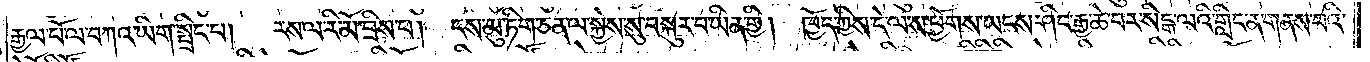རྒྱལ་པོ་ལ་བཀའ་ཡིག་སྤྲིང་པ། རས་ལ་རི་མོ་བྲིས་པ། ངས་མུ་ཏིག་ཅན་ལ་སྐྱེས་སུ་བསྐུར་བ་ཡིན་གྱི། ཁྱོད་ཀྱིས་དེ་ལ་ས་ཕྱོགས་ཡངས་ཤིང་རྒྱ་ཆེ་བར་སིངྒ་ལའི་གླིང་ན་གནས་བའི་
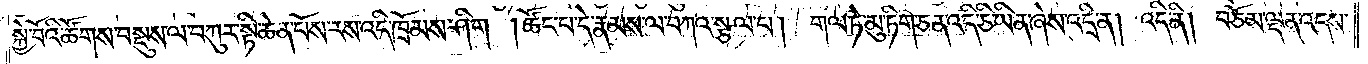སྐྱེ་བོའི་ཚོགས་བསྡུས་ལ་བཀུར་སྟི་ཆེན་པོས་རས་འདི་ཁྲོམས་ཤིག །ཚོང་པ་དེ་རྣམས་ལ་བཀའ་སྩལ་པ། གལ་ཏེ་མུ་ཏིག་ཅན་འདི་ཅི་ཡིན་ཞེས་འདྲི་ན། འདི་ནི། བཅོམ་ལྡན་འདས་
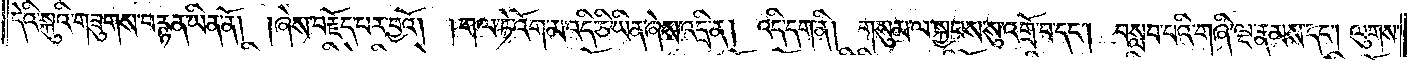དེའི་སྐུའི་གཟུགས་བརྙན་ཡིན་ནོ། །ཞེས་བརྗོད་པར་བྱའོ། །གལ་ཏེ་འོག་མ་འདི་ཅི་ཡིན་ཞེས་འདྲི་ན། འདི་དག་ནི། གསུམ་ལ་སྐྱབས་སུ་འགྲོ་བ་དང༌། བསླབ་པའི་གཞི་ལྔ་རྣམས་དང༌། ལུགས་
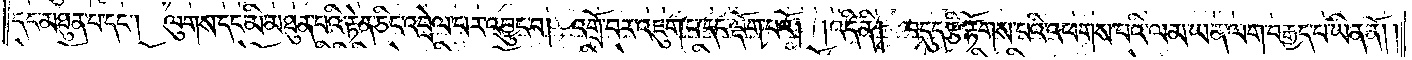དང་མཐུན་པ་དང༌། ལུགས་དང་མི་མཐུན་པའི་རྟེན་ཅིང་འབྲེལ་པར་འབྱུང་བ། འགྲོ་བར་འཇུག་པ་དང་ལྡོག་པའོ། །འདི་ནི། བདུད་རྩི་རྟོགས་པའི་འཕགས་པའི་ལམ་ཡན་ལག་བརྒྱད་པ་ཡིན་ནོ། །
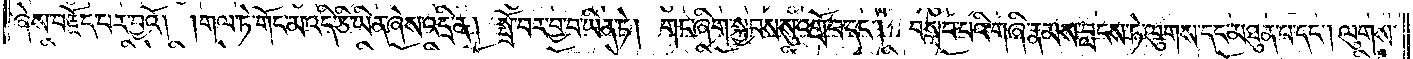ཞེས་བརྗོད་པར་བྱའོ། །གལ་ཏེ་གོང་མ་འདི་ཅི་ཡིན་ཞེས་འདྲི་ན། སྤྲོ་བར་བྱ་བ་ཡིན་ཏེ། གང་ཞིག་སྐྱབས་སུ་འགྲོ་བ་དང༌། བསླབ་པའི་གཞི་རྣམས་བླངས་ཏེ་ལུགས་དང་མཐུན་པ་དང༌། ལུགས་
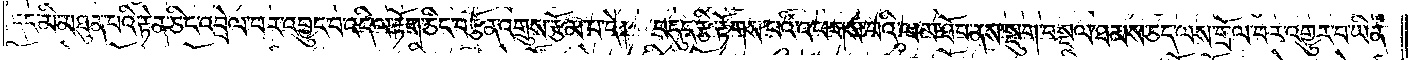དང་མི་མཐུན་པའི་རྟེན་ཅིང་འབྲེལ་པར་འབྱུང་བ་འདི་ལ་རྟོག་ཅིང་བརྩོན་འགྲུས་རྩོམ་པ་དེ། བདུད་རྩི་རྟོགས་པའི་འཕགས་པའི་ལམ་ཐོབ་ནས་སྡུག་བསྔལ་ཐམས་ཅད་ལས་གྲོལ་བར་འགྱུར་བ་ཡིན་
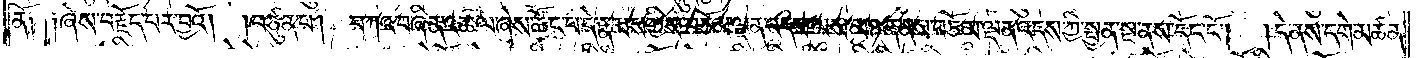ནོ༑ ༑ཞེས་བརྗོད་པར་བྱའོ། །བཙུན་པ། བཀའ་བཞིན་འཚལ་ཞེས་ཚོང་པ་དེ་རྣམས་ཀྱིས་བཅོམ་ལྡན་འདས་ལས་མཉན་ནས་བཅོམ་ལྡན་འདས་ཀྱི་སྤྱན་སྔ་ནས་དོང་ངོ༌། །དེ་ནས་དགེ་མཚན་
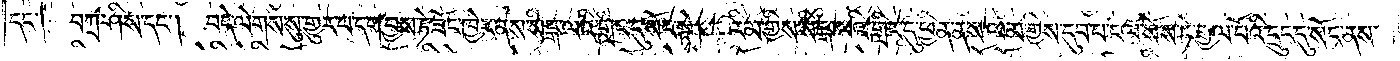དང༌། བཀྲ་ཤིས་དང༌། བདེ་ལེགས་སུ་གྱུར་བ་དག་བྱས་ཏེ་ཟོང་ཁྱེར་ནས་སིངྒ་ལའི་གླིང་དུ་སོང་སྟེ། རིམ་གྱིས་སིངྒ་ལའི་གླིང་དུ་ཕྱིན་ནས་ལམ་གྱིས་དུབ་པ་ངལ་སོས་ཏེ་རྒྱལ་པོའི་དྲུང་དུ་སོང་ནས་
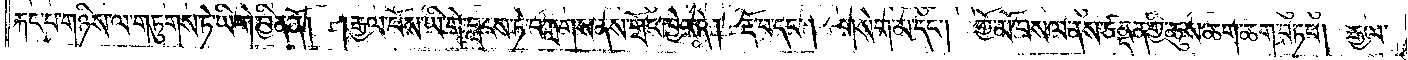རྐང་པ་གཉིས་ལ་གཏུགས་ཏེ་ཡི་གེ་བྱིན་ནོ། །རྒྱལ་པོས་ཡི་གེ་བླངས་ཏེ་བཀླགས་ནས་གྲོང་ཁྱེར་དེ། རྡོ་བ་དང༌། གསེག་མ་དང༌། གྱོ་མོ་བསལ་ནས་ཙནྡན་གྱི་ཆུས་ཆག་ཆག་བཏབ། རྒྱལ་
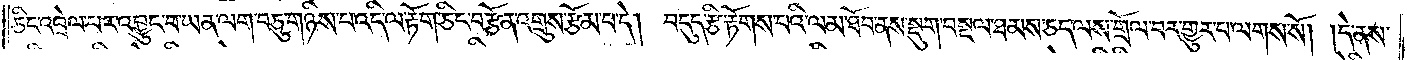ཅིང་འབྲེལ་པར་འབྱུང་བ་ཡན་ལག་བཅུ་གཉིས་པ་འདི་ལ་རྟོག་ཅིང་བརྩོན་འགྲུས་རྩོམ་པ་དེ། བདུད་རྩི་རྟོགས་པའི་ལམ་ཐོབ་ནས་སྡུག་བསྔལ་ཐམས་ཅད་ལས་གྲོལ་བར་གྱུར་པ་ལགས་སོ། །དེ་ནས་
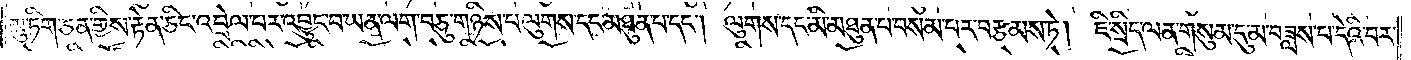མུ་ཏིག་ཅན་གྱིས་རྟེན་ཅིང་འབྲེལ་པར་འབྱུང་བ་ཡན་ལག་བཅུ་གཉིས་པ་ལུགས་དང་མཐུན་པ་དང༌། ལུགས་དང་མི་མཐུན་པ་བསམ་པར་བརྩམས་ཏེ། ཇི་སྲིད་ལན་གསུམ་དུ་མ་བཟླས་པ་དེའི་བར་
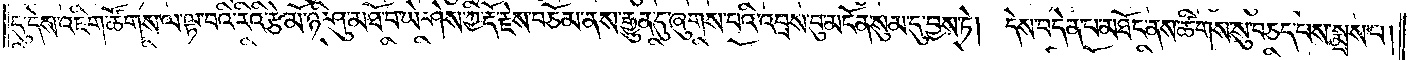དུ་དེས་འཇིག་ཚོགས་ལ་ལྟ་བའི་རིའི་རྩེ་མོ་ཉི་ཤུ་མཐོ་བ་ཡེ་ཤེས་ཀྱི་རྡོ་རྗེས་བཅོམ་ནས་རྒྱུན་དུ་ཞུགས་པའི་འབྲས་བུ་མངོན་སུམ་དུ་བྱས་ཏེ། དེས་བདེན་པ་མཐོང་ནས་ཚིགས་སུ་བཅད་པས་སྨྲས་པ།
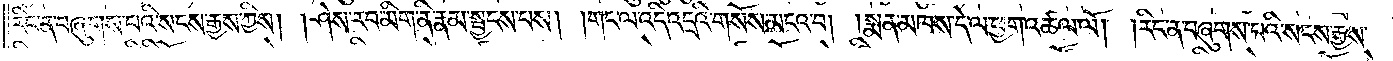རིང་ན་བཞུགས་པའི་སངས་རྒྱས་ཀྱིས། །ཤེས་རབ་མིག་ནི་རྣམ་སྦྱངས་པས། །གང་ལ་འདི་འདྲའི་གསོས་མངའ་བ། །སྨན་མཁས་དེ་ལ་ཕྱག་འཚལ་ལོ། །རིང་ན་བཞུགས་པའི་སངས་རྒྱས་
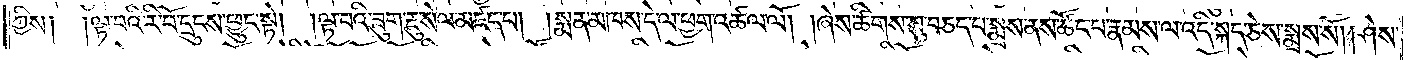ཀྱིས། །ལྟ་བའི་རི་བོ་དྲུངས་ཕྱུང་སྟེ། །ལྟ་བའི་ཟུག་རྔུ་སེལ་མཛད་པ། །སྨན་མཁས་དེ་ལ་ཕྱག་འཚལ་ལོ། །ཞེས་ཚིགས་སུ་བཅད་པ་སྨྲས་ནས་ཚོང་པ་རྣམས་ལ་འདི་སྐད་ཅེས་སྨྲས་སོ། །ཤེས་
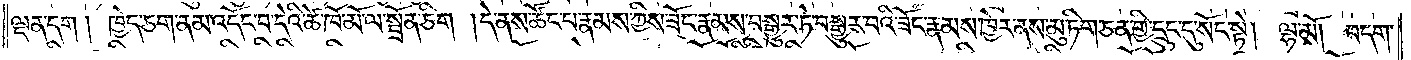ལྡན་དག །ཁྱེད་ཅག་ནམ་འདོང་བ་དེའི་ཚེ་ཁོ་མོ་ལ་སྦྲོན་ཅིག །དེ་ནས་ཚོང་པ་རྣམས་ཀྱིས་ཟོང་རྣམས་བསྒྱུར་ཏེ་བསྒྱུར་བའི་ཟོང་རྣམས་ཁྱེར་ནས་མུ་ཏིག་ཅན་གྱི་དྲུང་དུ་སོང་སྟེ། ལྷ་མོ། བདག་
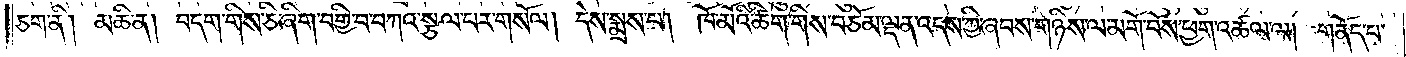ཅག་ནི། མཆི་ན། བདག་གིས་ཅི་ཞིག་བགྱི་བ་བཀའ་སྩལ་པར་གསོལ། དེས་སྨྲས་པ། ཁོ་མོའི་ཚིག་གིས་བཅོམ་ལྡན་འདས་ཀྱི་ཞབས་གཉིས་ལ་མགོ་བོས་ཕྱག་འཚལ་ལ། གནོད་པ་
